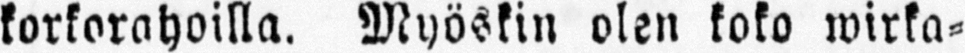korkorahoilla. Myöskin olen koko wirka-
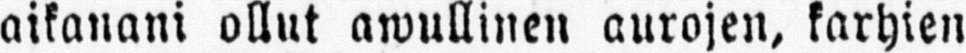aikanani ollut awullinen aurojen, karhien
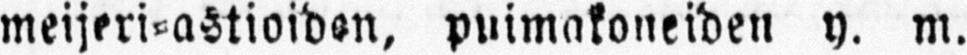meijeri-astioidsn, puimakoneiden y. m.
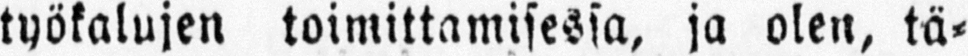työkalujen toimittamisessa, ja olen, tä-
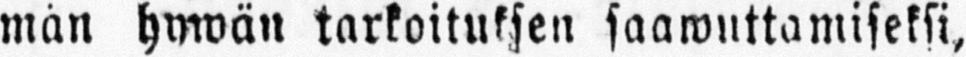män hywän tarkoituksen saawuttamiseksi,
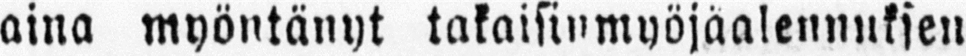aina myöntänyt takaisin myöjäalennuksen
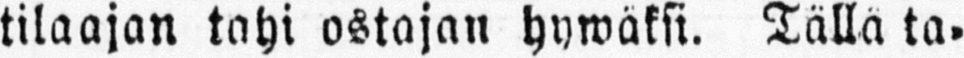tilaajan tahi ostajan hywäksi. Tällä ta-
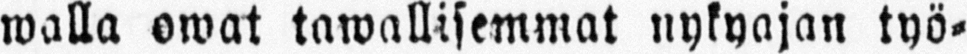walla owat tawallisemmat nykyajan työ-
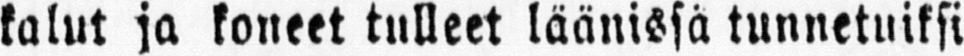kalut ja koneet tulleet läänissä tunnetuiksi
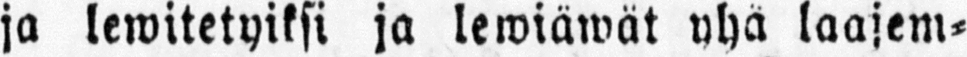ja lewitetyiksi ja lewiäwät yhä laajem-
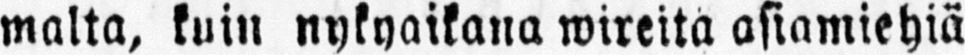malta, kuin nykyaikana wireitä asiamiehiä
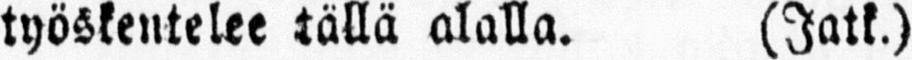työskentelee tällä alalla. (Jatk.)
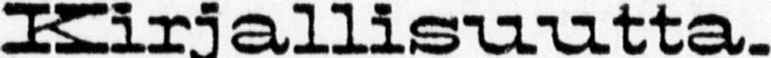Kirjallisuutta.
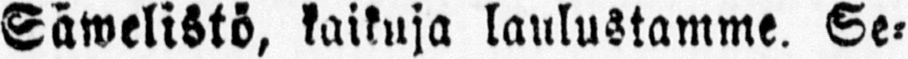Säwelistö, kaikuja laulustamme. Se-
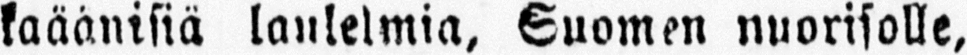kaäänisiä laulelmia. Suomen nuorisolle,
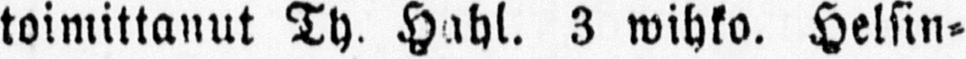toimittanut Th. Hahl. 3 wihko. Helsin-
